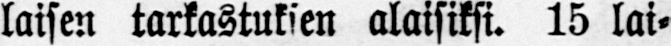laisen tarkastuksen alaisiksi. 15 lai-
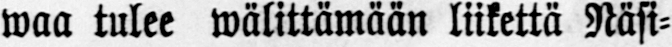waa tulee wälittämään liikettä Näsi-
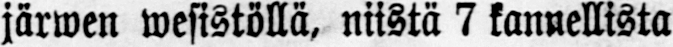järwen wesistöllä, niistä 7 kannellista
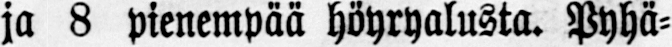ja 8 pienempää höyryalusta. Pyhä-
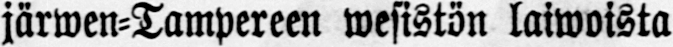järwen-Tampereen wesistön laiwoista
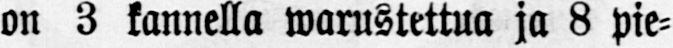on 3 kannella warustettua ja 8 pie-
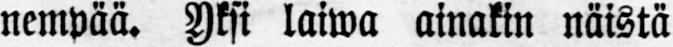nempää. Yksi laiwa ainakin näistä
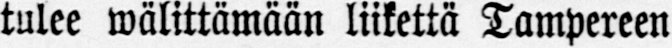tulee wälittämään liikettä Tampereen
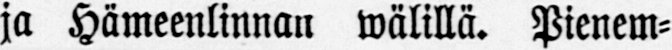ja Hämeenlinnan wälillä. Pienem-
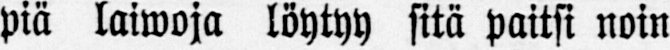piä laiwoja löytyy sitä paitsi noin
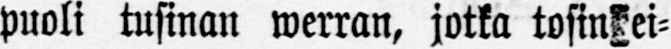puoli tusinan werran, jotka tosin ei-
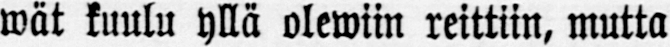wät kuulu yllä olewiin reittiin, mutta
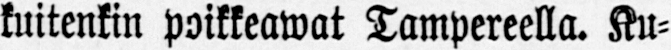kuitenkin poikkeawat Tampereella. Ku-
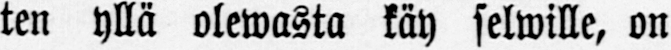ten yllä olewasta käy selwille, on
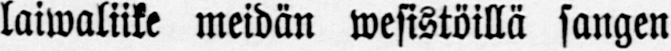laiwaliike meidän wesistöillä sangen
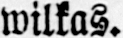wilkas.
